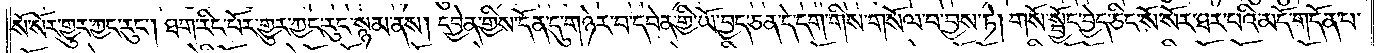སོ་སོར་གྱུར་ཀྱང་རུང༌། ཐག་རིང་པོར་གྱུར་ཀྱང་རུང་སྙམ་ནས། དབྱེན་གྱིས་དོན་དུ་གཉེར་བ་དབེན་གྱི་ཡོ་བྱད་ཅན་དེ་དག་གིས་གསོལ་བ་བྱས་ཏེ། གསོ་སྦྱོང་བྱེད་ཅིང་སོ་སོར་ཐར་པའི་མདོ་གདོན་པ་
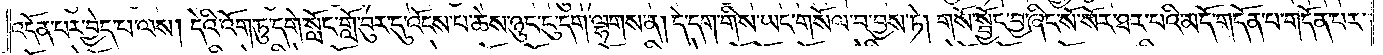འདོན་པར་བྱེད་པ་ལས། དེའི་འོག་ཏུ་དགེ་སློང་གློ་བུར་དུ་འོངས་པ་ཆེས་ཉུང་དུ་དག་ལྷགས་ན། དེ་དག་གིས་ཡང་གསོལ་བ་བྱས་ཏེ། གསོ་སྦྱོང་བྱ་ཞིང་སོ་སོར་ཐར་པའི་མདོ་གདོན་པ་གདོན་པར་
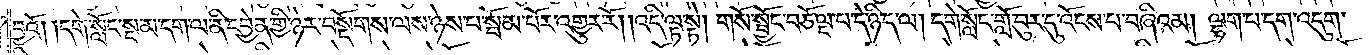བྱའོ། །དགེ་སློང་སྔ་མ་དག་ལ་ནི་དབྱེན་གྱི་ཉེར་བསྡོགས་ལས་ཉེས་པ་སྦོམ་པོར་འགྱུར་རོ། །འདི་ལྟ་སྟེ། གསོ་སྦྱོང་བཅོ་ལྔ་པ་དེ་ཉིད་ལ། དགེ་སློང་གློ་བུར་དུ་འོངས་པ་བཞིའམ། ལྷག་པ་དག་འདུག་
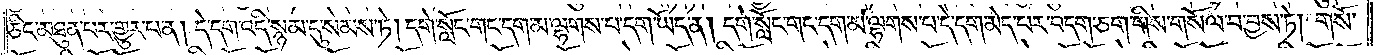ཅིང་མཐུན་པར་གྱུར་པ་ན། དེ་དག་འདི་སྙམ་དུ་སེམས་ཏེ། དགེ་སློང་གང་དག་མ་ལྷགས་པ་དག་ཡོད་ན། དགེ་སློང་གང་དག་མ་ལྷགས་པ་དེ་དག་མེད་པར་བདག་ཅག་གིས་གསོལ་བ་བྱས་ཏེ། གསོ་
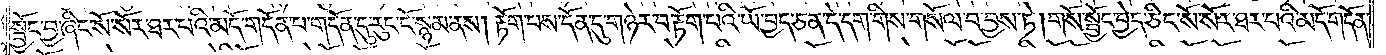སྦྱོང་བྱ་ཞིང་སོ་སོར་ཐར་པའི་མདོ་གདོན་པ་གདོན་དུ་རུང་ངོ་སྙམ་ནས། རྟོག་པས་དོན་དུ་གཉེར་བ་རྟོག་པའི་ཡོ་བྱད་ཅན་དེ་དག་གིས་གསོལ་བ་བྱས་ཏེ། གསོ་སྦྱོང་བྱེད་ཅིང་སོ་སོར་ཐར་པའི་མདོ་གདོན་
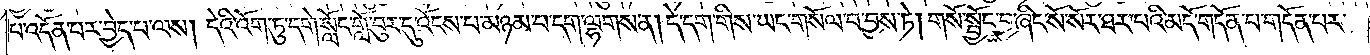པ་འདོན་པར་བྱེད་པ་ལས། དེའི་འོག་ཏུ་དགེ་སློང་གློ་བུར་དུ་འོངས་པ་མཉམ་པ་དག་ལྷགས་ན། དེ་དག་གིས་ཡང་གསོལ་བ་བྱས་ཏེ། གསོ་སྦྱོང་བྱ་ཞིང་སོ་སོར་ཐར་པའི་མདོ་གདོན་པ་གདོན་པར་
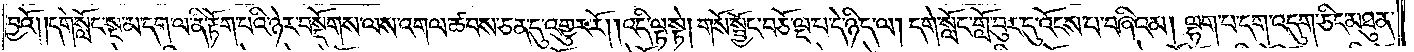བྱའོ། །དགེ་སློང་སྔ་མ་དག་ལ་ནི་རྟོག་པའི་ཉེར་བསྡོགས་ལས་འགལ་ཚབས་ཅན་དུ་འགྱུར་རོ། །འདི་ལྟ་སྟེ། གསོ་སྦྱོང་བཅོ་ལྔ་པ་དེ་ཉིད་ལ། དགེ་སློང་གློ་བུར་དུ་འོངས་པ་བཞིའམ། ལྷག་པ་དག་འདུག་ཅིང་མཐུན་
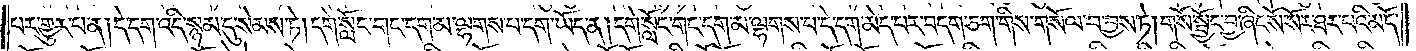པར་གྱུར་པ་ན། དེ་དག་འདི་སྙམ་དུ་སེམས་ཏེ། དགེ་སློང་གང་དག་མ་ལྷགས་པ་དག་ཡོད་ན། དགེ་སློང་གང་དག་མ་ལྷགས་པ་དེ་དག་མེད་པར་བདག་ཅག་གིས་གསོལ་བ་བྱས་ཏེ། གསོ་སྦྱོང་བྱ་ཞིང་སོ་སོར་ཐར་པའི་མདོ་
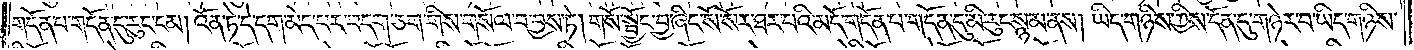གདོན་པ་གདོན་དུ་རུང་ངམ། འོན་ཏེ་དེ་དག་མེད་པར་བདག་ཅག་གིས་གསོལ་བ་བྱས་ཏེ། གསོ་སྦྱོང་བྱ་ཞིང་སོ་སོར་ཐར་པའི་མདོ་གདོན་པ་གདོན་དུ་མི་རུང་སྙམ་ནས། ཡིད་གཉིས་ཀྱིས་དོན་དུ་གཉེར་བ་ཡིད་གཉིས་
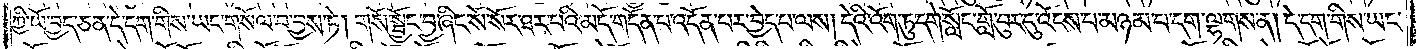ཀྱི་ཡོ་བྱད་ཅན་དེ་དག་གིས་ཡང་གསོལ་བ་བྱས་ཏེ། གསོ་སྦྱོང་བྱ་ཞིང་སོ་སོར་ཐར་པའི་མདོ་གདོན་པ་འདོན་པར་བྱེད་པ་ལས། དེའི་འོག་ཏུ་དགེ་སློང་གློ་བུར་དུ་འོངས་པ་མཉམ་པ་དག་ལྷགས་ན། དེ་དག་གིས་ཡང་
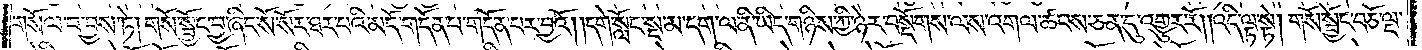གསོལ་བ་བྱས་ཏེ། གསོ་སྦྱོང་བྱ་ཞིང་སོ་སོར་ཐར་པའི་མདོ་གདོན་པ་གདོན་པར་བྱའོ། །དགེ་སློང་སྔ་མ་དག་ལ་ནི་ཡིད་གཉིས་ཀྱི་ཉེར་བསྡོགས་ལས་འགལ་ཚབས་ཅན་དུ་འགྱུར་རོ། །འདི་ལྟ་སྟེ། གསོ་སྦྱོང་བཅོ་ལྔ་
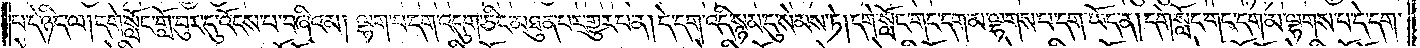པ་དེ་ཉིད་ལ། དགེ་སློང་གློ་བུར་དུ་འོངས་པ་བཞིའམ། ལྷག་པ་དག་འདུག་ཅིང་མཐུན་པར་གྱུར་པ་ན། དེ་དག་འདི་སྙམ་དུ་སེམས་ཏེ། དགེ་སློང་གང་དག་མ་ལྷགས་པ་དག་ཡོད་ན། དགེ་སློང་གང་དག་མ་ལྷགས་པ་དེ་དག་
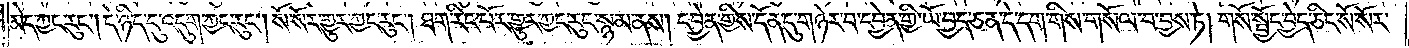མེད་ཀྱང་རུང༌། དེ་ཉིད་དུ་འདུག་ཀྱང་རུང༌། སོ་སོར་གྱུར་ཀྱང་རུང༌། ཐག་རིང་པོར་གྱུར་ཀྱང་རུང་སྙམ་ནས། དབྱེན་གྱིས་དོན་དུ་གཉེར་བ་དབྱེན་གྱི་ཡོ་བྱད་ཅན་དེ་དག་གིས་གསོལ་བ་བྱས་ཏེ། གསོ་སྦྱོང་བྱེད་ཅིང་སོ་སོར་
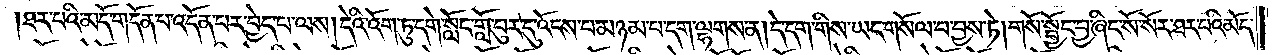ཐར་པའི་མདོ་གདོན་པ་འདོན་པར་བྱེད་པ་ལས། དེའི་འོག་ཏུ་དགེ་སློང་གློ་བུར་དུ་འོངས་པ་མཉམ་པ་དག་ལྷགས་ན། དེ་དག་གིས་ཡང་གསོལ་བ་བྱས་ཏེ། གསོ་སྦྱོང་བྱ་ཞིང་སོ་སོར་ཐར་པའི་མདོ་
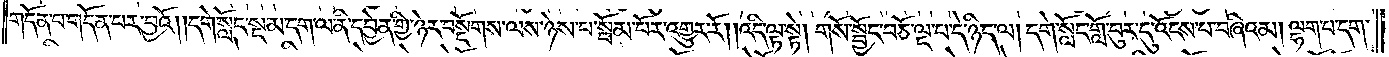གདོན་པ་གདོན་པར་བྱའོ། །དགེ་སློང་སྔ་མ་དག་ལ་ནི་དབྱེན་གྱི་ཉེར་བསྡོགས་ལས་ཉེས་པ་སྦོམ་པོར་འགྱུར་རོ། །འདི་ལྟ་སྟེ། གསོ་སྦྱོང་བཅོ་ལྔ་པ་དེ་ཉིད་ལ། དགེ་སློང་གློ་བུར་དུ་འོངས་པ་བཞིའམ། ལྷག་པ་དག་
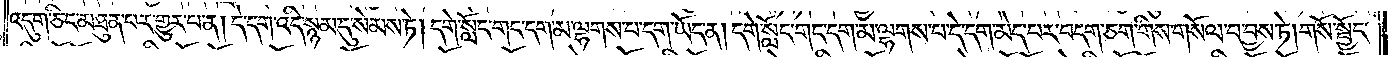འདུག་ཅིང་མཐུན་པར་གྱུར་པ་ན། དེ་དག་འདི་སྙམ་དུ་སེམས་ཏེ། དགེ་སློང་གང་དག་མ་ལྷགས་པ་དག་ཡོད་ན། དགེ་སློང་གང་དག་མ་ལྷགས་པ་དེ་དག་མེད་པར་བདག་ཅག་གིས་གསོལ་བ་བྱས་ཏེ། གསོ་སྦྱོང་
